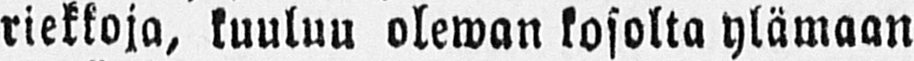riekkoja, kuuluu olewan kosolta ylämaan
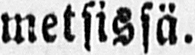metsissä.
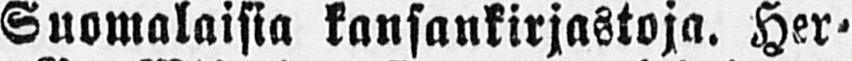Suomalaisia kansankirjastoja. Her-
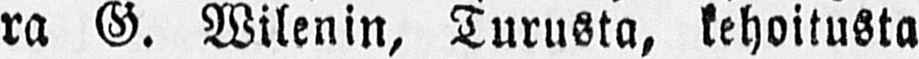ra G. Wilenin, Turusta, kehoitusta
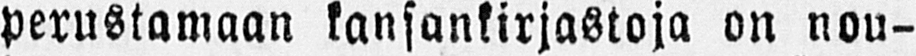perustamaan kansankirjastoja on nou-
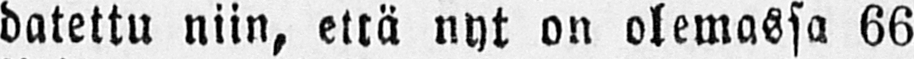datettu niin, että nyt on olemassa 66
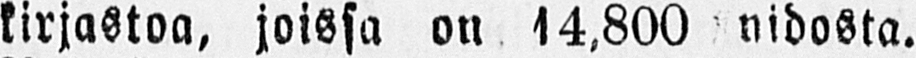kirjastoa, joissa on 14,800 nidosta.
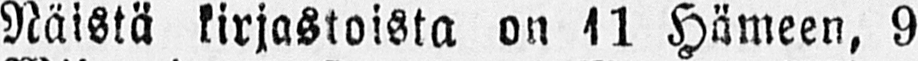Näistä kirjastoista on 11 Hämeen, 9
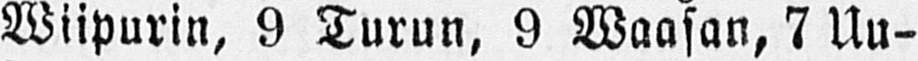Wiipurin, 9 Turun, 9 Waasan, 7 Uu-
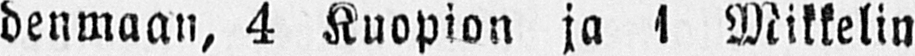denmaan, 4 Kuopion ja 1 Mikkelin
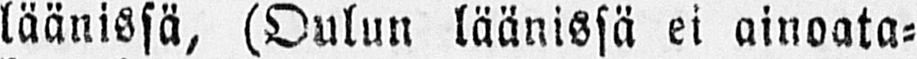läänissä, (Oulun läänissä ei ainoata-
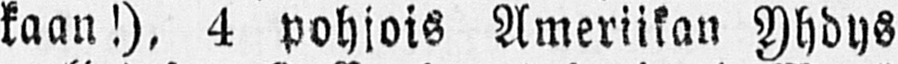kaan!), 4 pohjois Ameriikan Yhdys
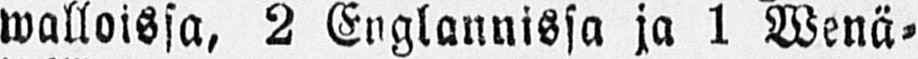walloissa, 2 Englannissa ja 1 Wenä-
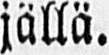jällä.
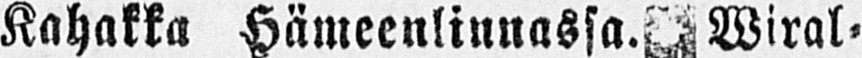Kahakka Hämeenlinnassa. Wiral-
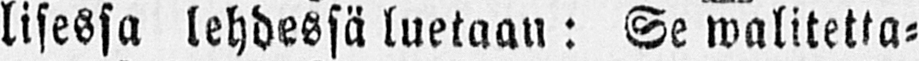lisessa lehdessä luetaan: Se walitetta-
